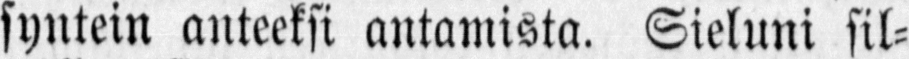syntein anteeksi antamista. Sieluni sil-
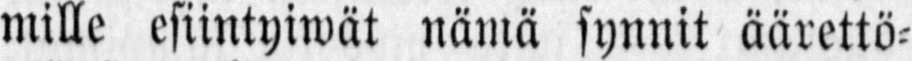mille esiintywät nämä synnit äärettö-
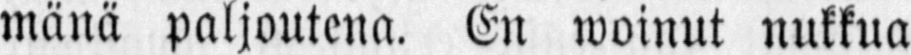mänä paljoutena. En woinut nukkua
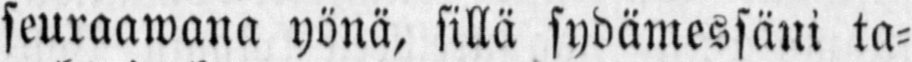seuraawana yönä, sillä sydämessäni ta-
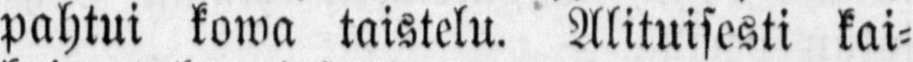pahtui kowa taistelu. Alituisesti kai-
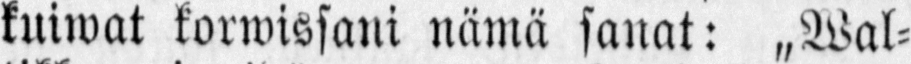kuiwat korwissani nämä sanat: „Wal-
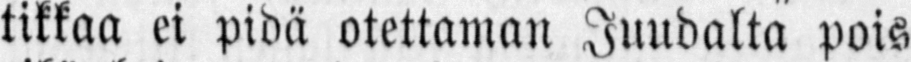tikkaa ei pidä otettaman Juudalta pois
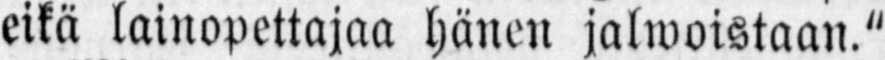eikä lainopettajaa hänen jalwoistaan."
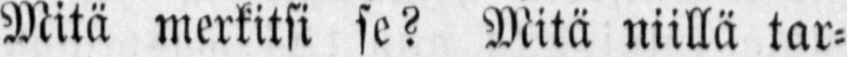Mitä merkitsi se? Mitä niillä tar-
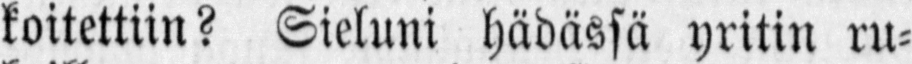koitettiin? Sieluni hädässä yritin ru-
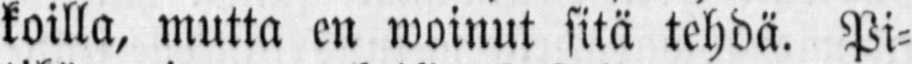koilla, mutta en woinut sitä tehdä. Pi-
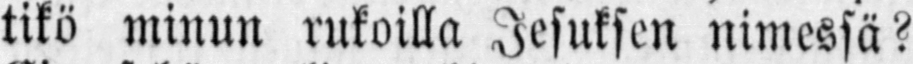tikö minun rukoilla Jesuksen nimessä?
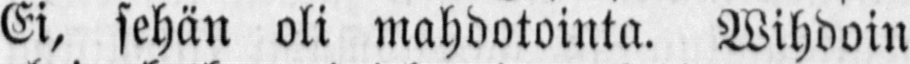Ei, sehän oli mahdotointa. Wihdoin
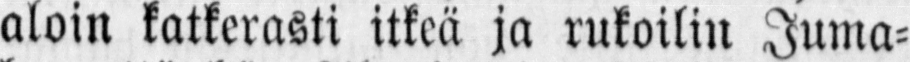aloin katkerasti itkeä ja rukoilin Juma-
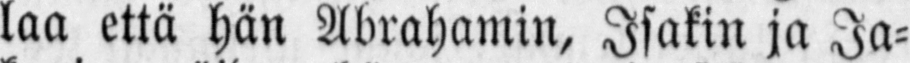laa että hän Abrahamin, Isakin ja Ja-
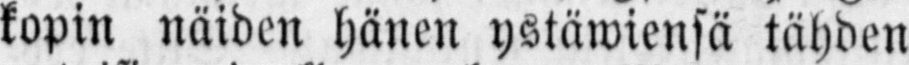kopin näiden hänen ystäwiensä tähden
